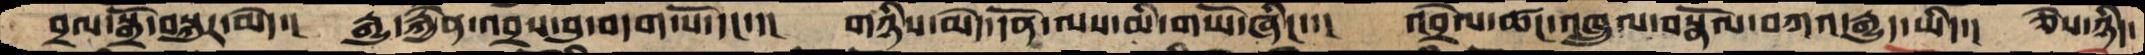བྲལ་སྒྲོ་བསྐུར་མེད་།  རྒྱུ་རྐྱེན་འབྲས་བུ་བདག་པོ་དང་་།  གཉིས་མེད་དོན་ལས་མི་གཡོ་ཞིང་་།  འབྲེལ་ཚད་འཁྲུལ་བསྣོལ་བཀའ་རྒྱུད་ཡིད་།  ཅེས་ཉིད་
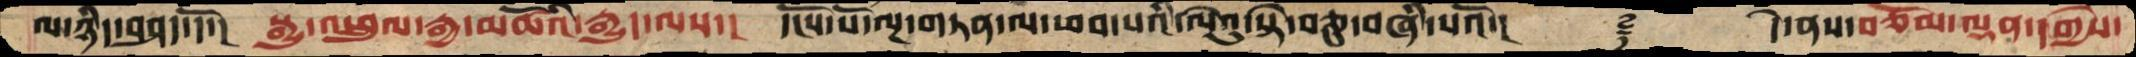ལ་ཉིད་བཤད་དོ་།  སྒྱུ་འཕྲུལ་རྒྱ་མཚོའི་རྒྱུད་ལས་།  དངོས་པོ་ལྔ་གཏན་ལ་ཕབ་པའི་ལེའུ་སྟེ་བཅུ་བཞི་པའོ་།    ࿑  དེ་ནས་བཅོམ་ལྡན་དགྱེས་
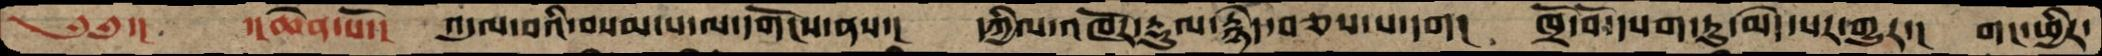༄༅་།    ་།ཆེན་པོ་།  འདུལ་བའི་བསམ་པ་ལ་དགོངས་ནས་།  དཀྱིལ་འཁོར་རྡུལ་རྙེད་བཅས་པ་དག།   ཁྲོ་བོ་དཔག་ཏུ་མེད་པར་གྱུར་།  གང་ཕྱིར་
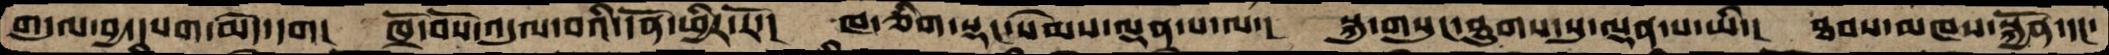གདུལ་བྱ་དཔག་མེད་དག།  ཁྲོ་བོས་འདུལ་བའི་དོན་ཕྱིར་རོ་།  ཁ་ཅིག་སྡང་སེམས་ལྡན་པ་ལ་།  སྐུ་གསུང་ཐུགས་སུ་ལྡན་པ་ཡི་།  ཐབས་མཁས་སྐྱོན་དང་
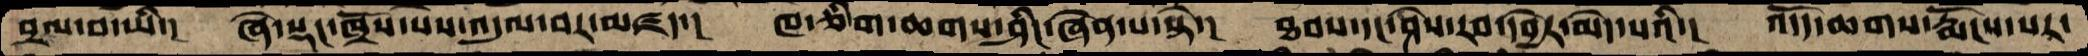བྲལ་བ་ཡི་།  ཞེ་སྡང་ཁྲོས་པས་འདུལ་བར་མཛད་།  ཁ་ཅིག་ཆགས་ཤིང་ཞེན་པ་སྟེ་།  ཐབས་དང་ཤེས་རབ་དབྱེར་མེད་པའི་།  འདོད་ཆགས་རྨོངས་པར་
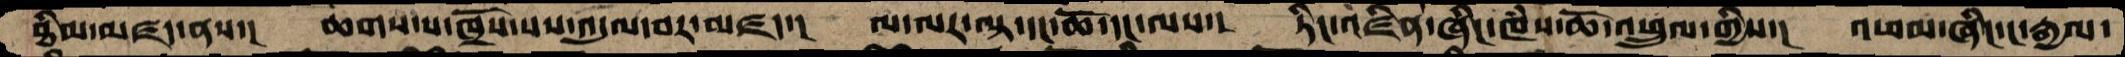ཐིམ་མཛད་ནས་།  ཆགས་པ་ཁྲོས་པས་འདུལ་བར་མཛད་།  ལ་ལར་ལྟ་དང་ཆོ་དང་ལས་།  ཏིང་འཛིན་ཞིང་ཁཾས་ཆོ་འཕྲུལ་གྱིས་།  འཕམ་ཞིང་ང་རྒྱལ་
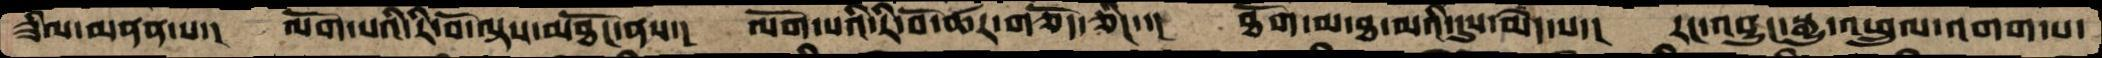ཟིལ་མནན་པ་།  ལོག་པའི་རི་བོ་ལྟས་མཐོང་ནས་།  ལོག་པའི་རི་བོ་ཚར་གཅོད་ཅིང་་།  ཐོག་མ་ཐ་མའི་དུས་མེད་པ་།  རང་འབྱུང་སྒྱུ་འཕྲུལ་འགག་པ་
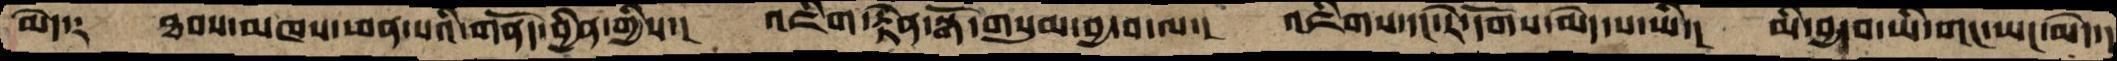མེད༑   ཐབས་མཁས་ཕན་པའི་གནོད་བྱིན་གྱིས་།   འཇིག་རྟེན་སྒོ་གསུམ་བྱ་བ་ལ་།  འཇིགས་དང་རེ་དོགས་མེད་པ་ཡི་།  མི་བྱ་བ་ཡི་གང་ཡང་མེད་།
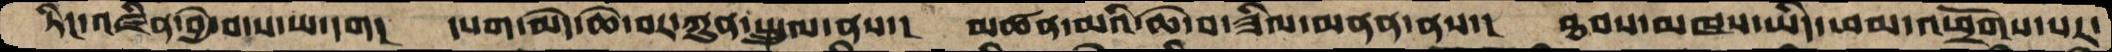ཏིང་འཛིན་བྱེ་བ་ས་ཡ་དག།   དཔག་མེད་ཆེ་བར་ཀུན་སྤྲུལ་ནས་།  མཚན་མའི་ཆེ་བ་ཟིལ་མནན་ནས་།  ཐབས་མཁས་ཡིད་ཕམ་འཕྲོགས་པར་
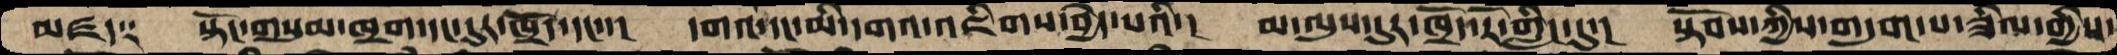མཛད༑   སྟོང་གསུམ་ཁྲག་དང་དུར་ཁྲོད་དང་་།   དགའ་དང་མི་དགའ་འཇིགས་བྱེད་པའི་།  མ་ལུས་དུར་ཁྲོད་རོ་གླིང་དུ་།  སྟོབས་ཀྱིས་གདུག་པ་ཟིལ་གྱིས་
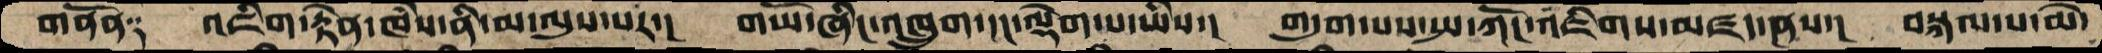གནོན༑   འཇིག་རྟེན་ཁཾས་ནི་མ་ལུས་པར་།  གཡོ་ཞིང་འཁྲུག་དང་ལྡེག་པ་ཡིས་།   གདུག་པས་སྤ་ཀོང་འཇིགས་མཛད་ནས་།   བསྐལ་པ་མེ་
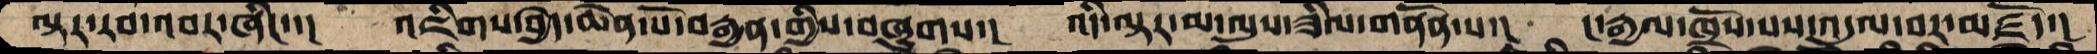ལྟར་རབ་འབར་ཞིང་་།   འཇིགས་བྱེད་ཆེན་པོ་བརྒྱན་གྱིས་བཞུགས་།  འདི་ལྟར་མ་ལུས་ཟིལ་གནོན་པ་།  ང་རྒྱལ་ཁྲོས་པས་འདུལ་བར་མཛོད་།
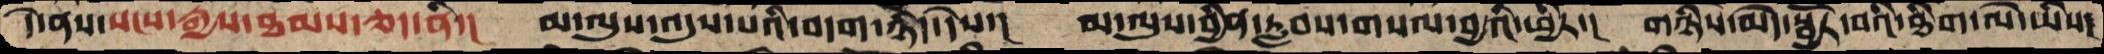དེ་ནས་སངས་རྒྱས་ཐམས་ཅད་ནི་།   མ་ལུས་འདུས་པའི་བདག་ཉིད་དེས་།  མ་ལུས་བྱིན་རླབས་གསལ་བྱའི་ཕྱིར་།  གཉིས་མེད་སྦྱོར་བའི་ཐིག་ལེ་ཡིས་།
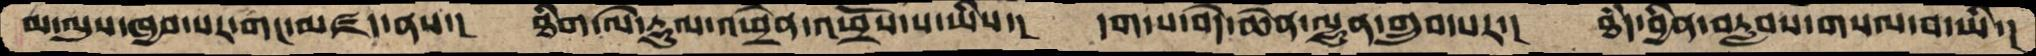མ་ལུས་ཁྱབ་པར་གང་མཛད་ནས་།  ཐིག་ལེ་རྡུལ་འཕྲེན་འཕྲོས་པ་ཡིས་།  དག་པ་བདེ་ཆེན་ལྷུན་གྲུབ་པར་།   ཐཾད་བྱིན་བརླབས་གསལ་བ་ཡི་།
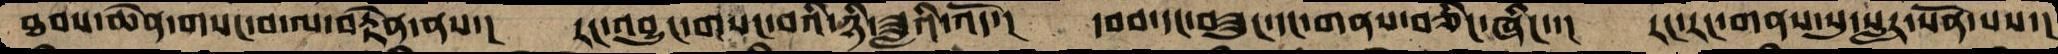ཐབས་ཆེན་གསང་བ་ལ་བརྟེན་ནས་།  རང་འབྱུང་གསང་བའི་ཉི་ཟླའི་འོད་།  དབབ་དང་བཟུང་དང་གནས་བཅིང་ཞིང་་།  རང་རང་གནས་སུ་སླར་སོན་པས་།
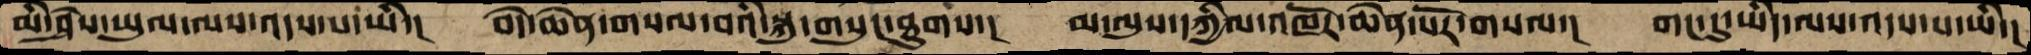མི་ཤེས་ཡུལ་ལས་འདས་པ་ཡི་།  བདེ་ཆེན་གསལ་བའི་སྐུ་གསུང་ཐུགས་།  མ་ལུས་དཀྱིལ་འཁོར་ཆེན་པོར་གསལ་།  གང་དུ་ཡིད་ལས་འདས་པ་ཡི་།
